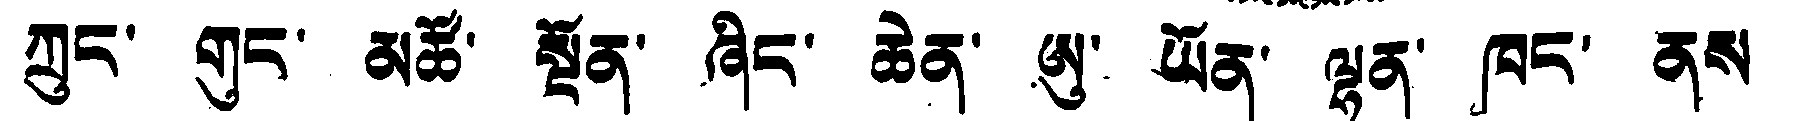ཀྲུང་ གུང་ མཚོ་ སྔོན་ ཞིང་ ཆེན་ ཨུ་ ཡོན་ ལྷན་ ཁང་ ནས
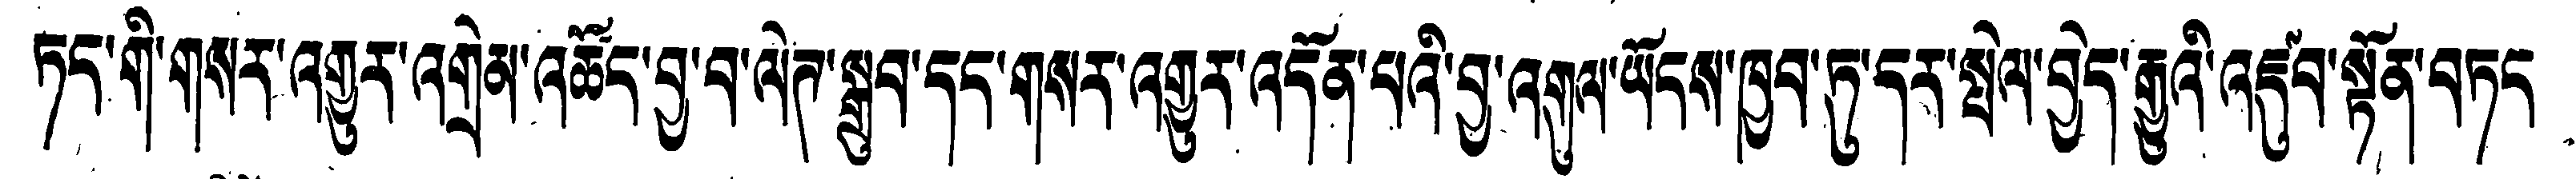ཏང་གི་གསར་འགྱུར་འགྲེམ་འཚོང་བྱ་བ་ལེཊ་སྒྲུབ་དང་གསར་འགྱུར་འདོན་པའི་བྱ་འགུལ་ཡོངས་ཁྱབ་ཏུ་དར་སྤེལ་བྱེད་རྒྱུའི་འཛུབ་སྟོན་གཏང
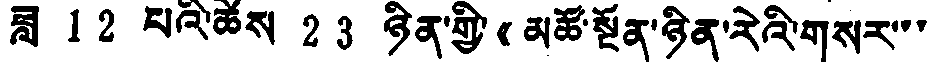ཟླ 12 པའི་ཚེས 23 ཉིན་གྱི《མཚོ་སྔོན་ཉིན་རེའི་གསར་་་
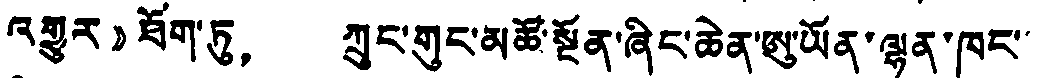འགྱུར》ཐོག་ཏུ， ཀྲུང་གུང་མཚོ་སྔོན་ཞིང་ཆེན་ཨུ་ཡོན་ལྷན་ཁང་་
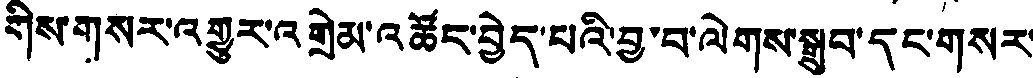གིས་གསར་འགྱུར་འགྲེམ་འཚོང་བྱེད་པའི་བྱ་བ་ལེགས་སྒྲུབ་དང་གསར་
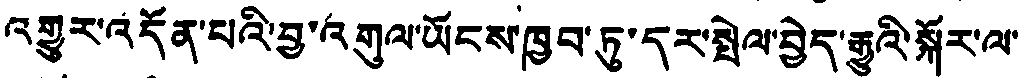འགྱུར་འདོན་པའི་བྱ་འགུལ་ཡོངས་ཁྱབ་ཏུ་དར་སྤེལ་བྱེད་རྒྱུའི་སྐོར་ལ་
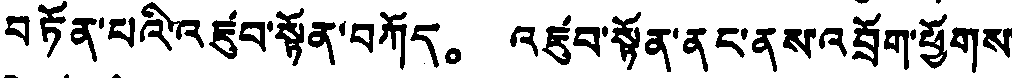བཏོན་པའི་འཛུབ་སྟོན་བཀོད。 འཛུབ་སྟོན་ནང་ནས་འབྲོག་ཕྱོགས
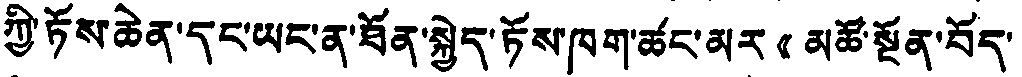ཀྱི་ཏོས་ཆེན་དང་ཡང་ན་ཐོན་སྐྱེད་ཏོས་ཁག་ཚང་མར《མཚོ་སྔོན་བོད་
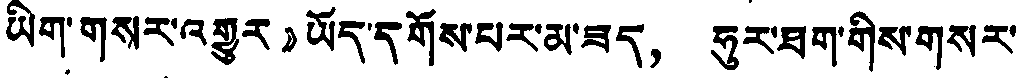ཡིག་གསར་འགྱུར》ཡོད་དགོས་པར་མ་ཟད， ཧུར་ཐག་གིས་གསར་
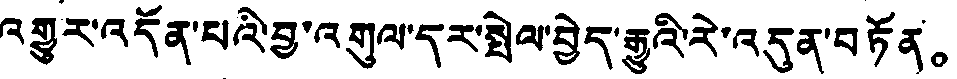འགྱུར་འདོན་པའི་བྱ་འགུལ་དར་སྤེལ་བྱེད་རྒྱུའི་རེ་འདུན་བཏོན。
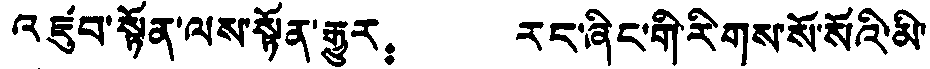འཛུབ་སྟོན་ལས་སྟོན་རྒྱུར： རང་ཞིང་གི་རིགས་སོ་སོའི་མི་
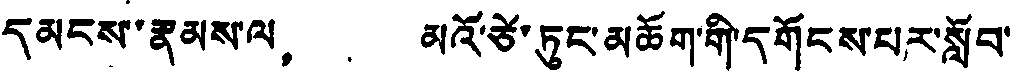དམངས་རྣམས་ལ， མའོ་ཙེ་ཏུང་མཆོག་གི་དགོངས་པར་སློབ་
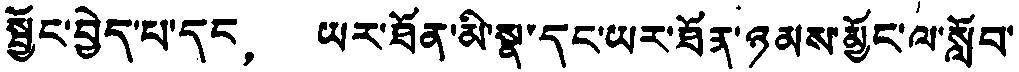སྦྱོང་བྱེད་པ་དང， ཡར་ཐོན་མི་སྣ་དང་ཡར་ཐོན་ཉམས་མྱོང་ལ་སློབ་
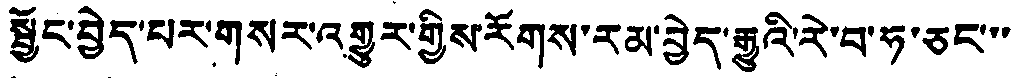སྦྱོང་བྱེད་པར་གསར་འགྱུར་གྱིས་རོགས་རམ་བྱེད་རྒྱུའི་རེ་བ་ཧ་ཅང་་་
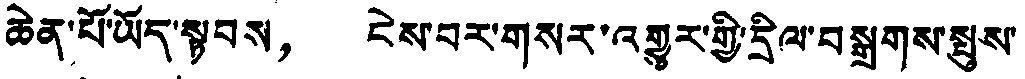ཆེན་པོ་ཡོད་སྟབས， ངེས་བར་གསར་འགྱུར་གྱི་དྲིལ་བསྒྲགས་སྤུས་
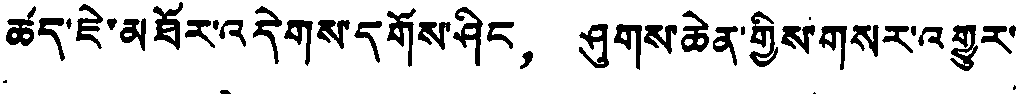ཚད་ཇེ་མཐོར་འདེགས་དགོས་ཤིང， ཤུགས་ཆེན་གྱིས་གསར་འགྱུར་
